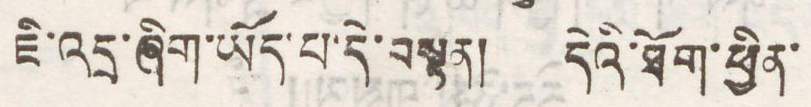ཇི་འདྲ་ཞིག་ཡོད་པ་དེ་བསྟན། དེའི་ཐོག་ཕྱིན་
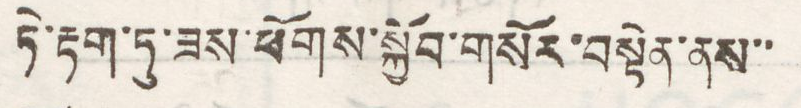ཏེ་རྟག་ཏུ་ཟས་ཕོགས་སྐྱོབ་གསོར་བསྟེན་ནས་་
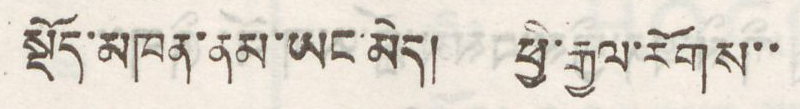སྡོད་མཁན་ནམ་ཡང་མེད། ཕྱི་རྒྱལ་རོགས་་
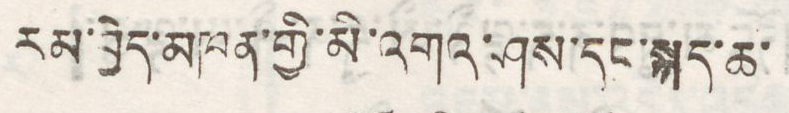རམ་བྱེད་མཁན་གྱི་མི་འགའ་ཤས་དང་སྐད་ཆ་
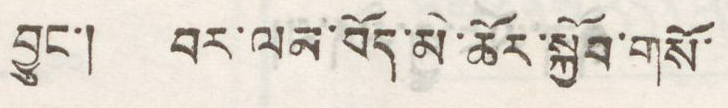བྱུང་། བར་ལམ་བོད་མི་ཚོར་སྐྱོབ་གསོ་
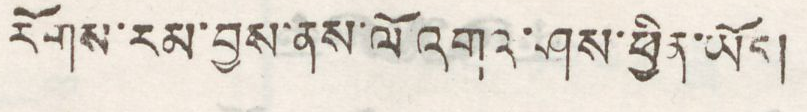རོགས་རམ་བྱས་ན་ལོ འགའ་ཤས་ཕྱིན་ཡོད།
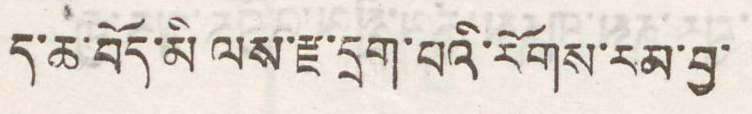ད་ཆ་བོད་མི ལས་རྫ་དྲག་པའི་རོགས་རམ་བྱ་
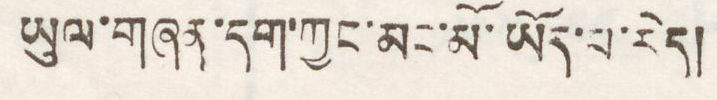ཡུལ་གཞན་དག་ཀྱང་མང་པོ་ཡོད་པ་རེད།
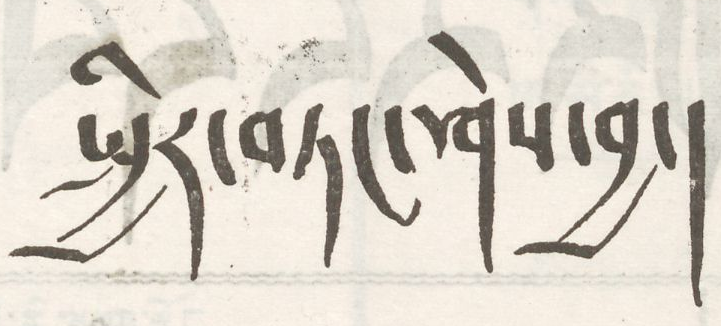སྤྱིར་བཏང་ཤེས་བྱ།
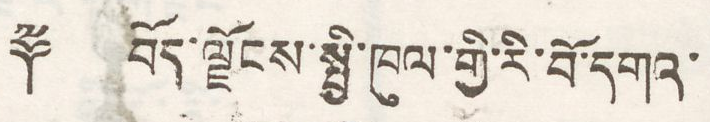༈ བོད་ལྗོངས་སྤྱི་ཁུལ་གྱི་རི་བོ་དགའ་
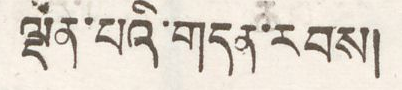ལྡན་པའི་གདན་རབས།
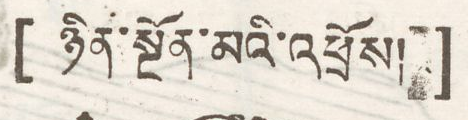[ ཉིན་སྔོན་མའི་འཕྲོས། ]
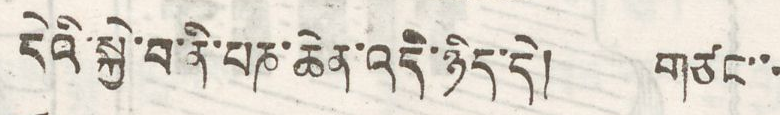དེའི་སྐྱེ་བ་ནི་པཎ་ཆེན་འདི་ཉིད་དེ། གཙང་་་
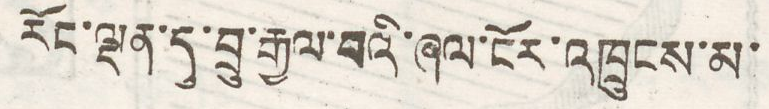རོང་ལྡན་དུ་བྲུ་རྒྱལ་བའི་ཞལ་ངོར་འཁྲུངས་མ་
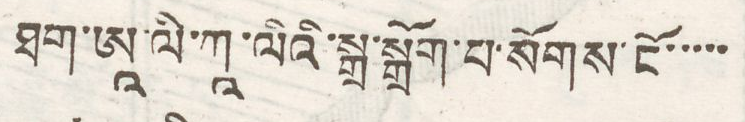ཐག་ཨྰ་ལི་ཀྰ་ལིའི་སྒྲ་སྒྲོག་པ་སོགས་ངོ་་་་་་
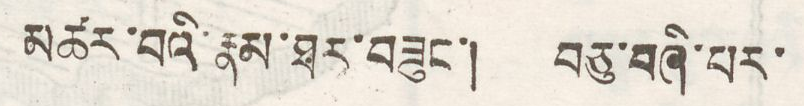མཚར་བའི་རྣམ་ཐར་བཟུང་། བཅུ་བཞི་པར་
